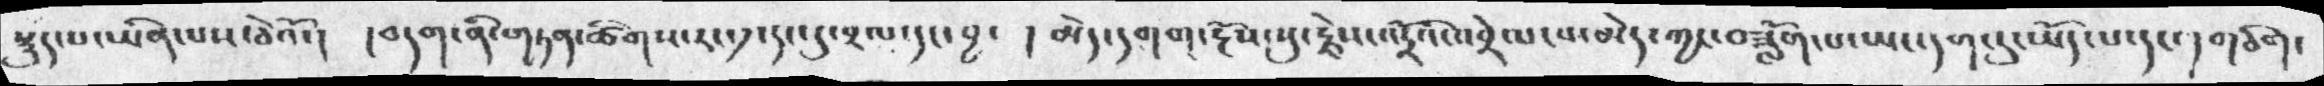སྡུད་པ་ཡིན་པས་ཅེའོ་།  །བདག་ནི་གཏན་ཚིགས་རང་༡་དང་དུ་བྲལ་དང་བྱ་ ། མེད་དགག་རྔོས་སུ་རྗེས་འདྲོའི་འབྲེལ་བ་མེད་ཀྱང་བཟློག་པ་ཡང་དག་དུ་ཡོད་པ་དང་།གཅིག་
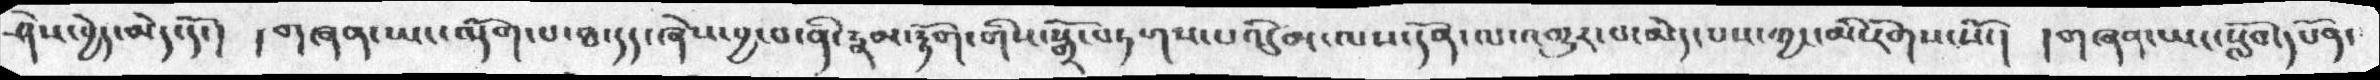ཤེས་བྱེད་མེད་དོ་།  །གཞཉ་ཡང་ལྡོག་པ་ཐ་དད་ཞེས་བྱ་བ་ནི་རྣམ་རྟོག་གིས་སྒྲོ་བཏགས་པའི་མ་ལས་དོན་ལ་འགྱུར་བ་མེད་པས་ཀྱང་མི་རིགས་སོ་།  །གཞན་ཡང་སློབ་དཔོན་
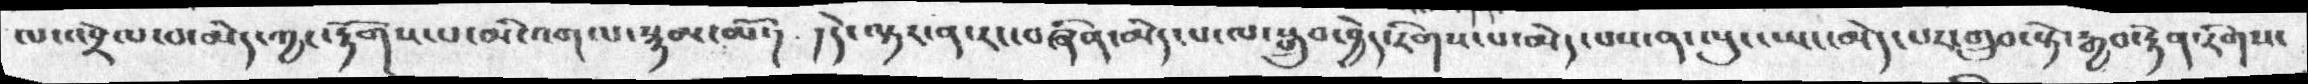ལ་འབྲེལ་བ་མེད་ཀྱང་རྟོགས་པ་མི་འགལ་སྙམ་མོ་།  །དེ་ལྟར་ན་རང་བཞིན་མེད་པ་ལ་སྒྲུབ་བྱེད་རིགས་པ་མེད་པས་ན་ལུང་ཡང་མེད་པར་གྲུབ་སྟེ་རྒྱབ་རྟེན་རིགས་
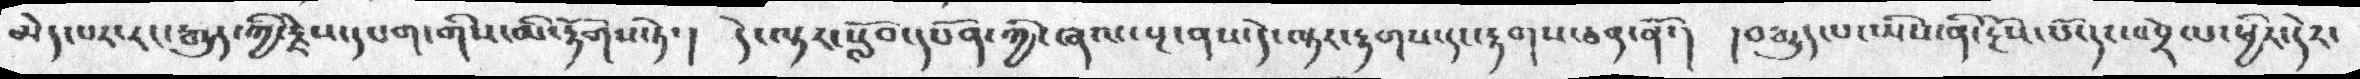མེད་པར་རང་རྒྱུད་ཀྱི་རྗེས་དཔག་གིས་མི་རྟོགས་ཏེ་།  དེ་ལྟར་སློབ་དཔོན་ཀྱི་ཞལ་སྔ་ནས་དེ་ལྟར་རྟགས་དང་རྟགས་ཅན་ནོ་།  །བརྒྱུད་པ་ཡིས་ནི་རྔོས་པོ་དང་འབྲེལ་ཕྱིར་དེར་
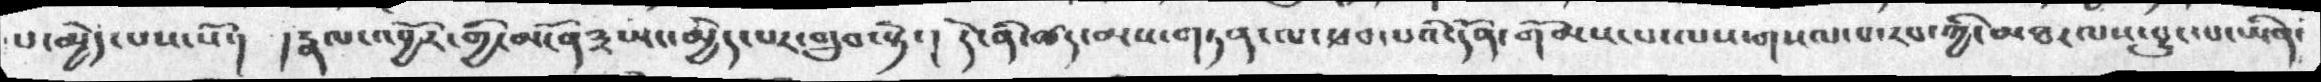པ་མྱེད་པས་སོ་། །རྣལ་འབྱོར་གྱི་མངོན༣ཡང་མྱེད་པར་གྲུབ་སྟེ་། དེ་ནི་ཚད་མས་གཏན་ལ་ཕབ་པའི་དོན་གོམས་པ་ལས་གསལ་པ་རབ་ཀྱི་མཐར་ལས་བྱུང་པ་ཡིན་
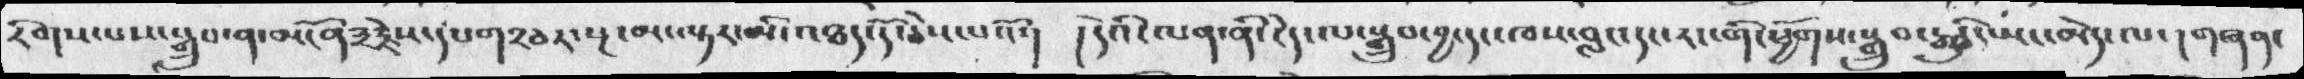རིགས་པས་སྒྲུབ་ན་མངོན༣རྗེས་དཔག༢ཅར་སྔ་མ་ལྟར་མི་འཐད་དོ་ཅེས་པའོ་།  །དེའི་ལན་ནི་ངེད་ལ་སྒྲུབ་བྱ་དང་ཁས་བླང་དང་རང་གི་ཕྱོགས་སྒྲུབ་རྒྱུའི་ཡང་མེད་ལ་། གཞན་
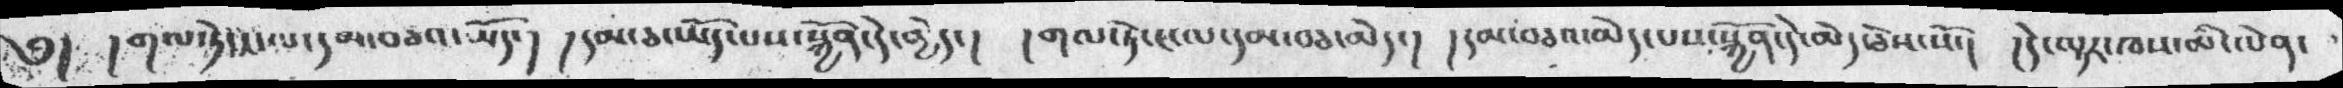༅།  །གལ་ཏེ་ང་ལ་དམ་བཅའ་ཡོད་།  །དམ་ཅ་ཡོད་པས་སྐྱོན་དེ་མྱེད་།  །གལ་ཏེ་ང་ལ་དམ་བཅ་མེད་།  །དམ་བཅའ་མེད་པས་སྐྱོན་དེ་མེད་ཅེས་སོ་།  །དེ་ལྟར་ཁས་མི་ལེན་
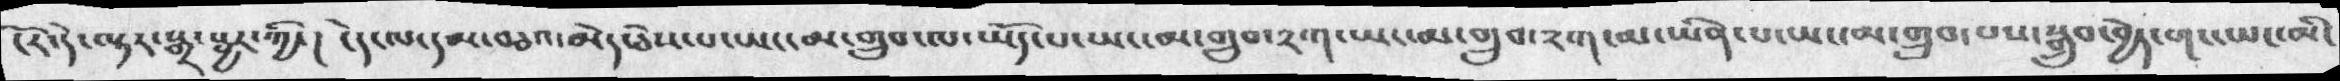ངོར་དེ་ལྟར་སྒྲ་སྦྱར་ཀྱི་།  ངེད་ལ་དམ་བཅའ་མེད་ཅེས་པ་ཡང་མ་གྲུབ་ལ་ཡོད་པ་ཡང་མ་གྲུབ་༢ཀ་ཡང་མ་གྲུབ་༢ག་མ་ཡིན་པ་ཡང་མ་གྲུབ་པས་སྒྲུབ་བྱེད་གང་ཡང་མི་
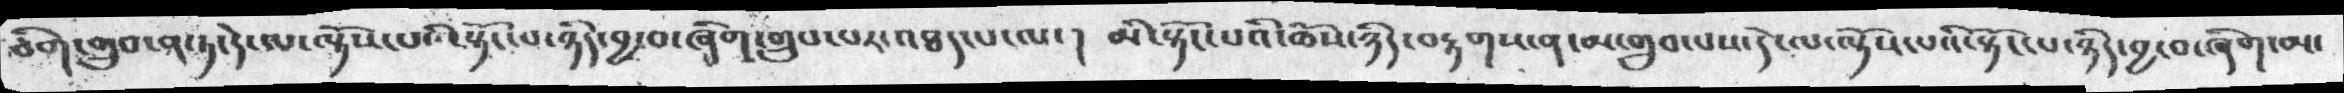ཅིག་གྲུབ་ན་ཏ་དེ་ལ་ལྟོས་པའི་སྟོང་པ་ཉིད་བྱ་བ་ཞིག་གྲུབ་པར་འཐད་པ་ལ་།  མི་སྟོང་པའི་ཆོས་ཉིད་བརྟགས་ན་མ་གྲུབ་པས་དེ་ལ་ལྟོས་པའི་སྟོང་པ་ཉིད་བྱ་བ་ཞིག་མ་
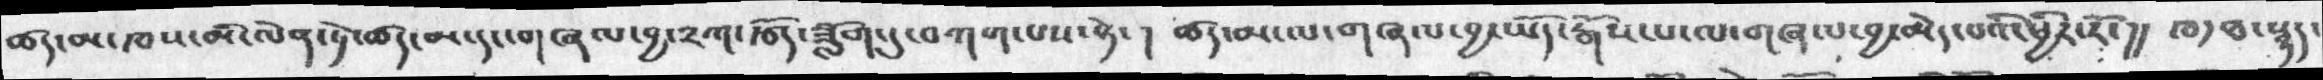ཚད་མ་ཁས་མི་ལེན་ཏེ་ཚད་མ་དང་གཞལ་བྱ་༢ཀ་རྩོད་ཟློག་དུ་བཀག་པས་སྟེ་། ཚད་མ་ལ་གཞལ་བྱ་ཡོད་རྒོས་པ་ལ་གཞལ་བྱ་མེད་པའི་ཕྱིར་རོ་།། ཁ༡ཐ་སྙད་
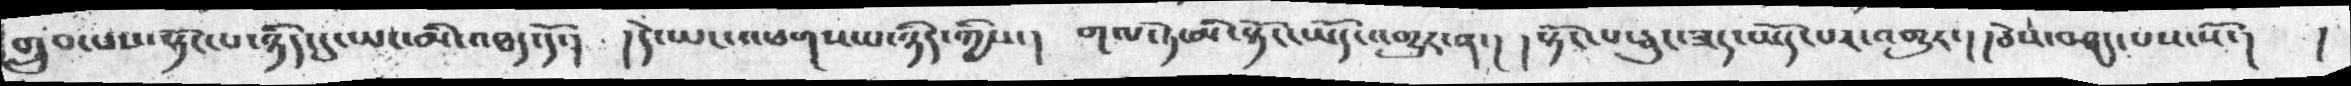གྲུབ་པས་སྟོང་པ་ཉིད་དུ་ཡང་མི་འཐད་དོ་།  །དེ་ཡང་འཕགས་པ་ཉིད་ཀྱིས་། གལ་ཏེ་སྟོང་ཡོད་འགྱུར་ན་། །སྟོང་པ་ཅུང་ཟད་ཡོད་པར་འགྱུར་། །ཅེས་བཤད་པས་སོ་། །
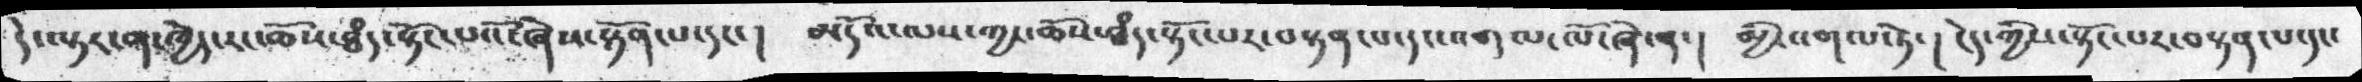དེ་ལྟར་ན་ཁྱེད་རང་ཆོས་ཐཾད་སྟོང་པའོ་ཞེས་སྟོན་པ་དང་།  མདོའ་ལས་ཀྱང་ཆོས་ཐཾད་སྟོང་པར་བསྟན་པ་དང་འགལ་ལོ་ཞེ་ན་།  མྱི་འགལ་ཏེ་།  ངེད་ཀྱིས་སྟོང་པར་བསྟན་པ་དང་
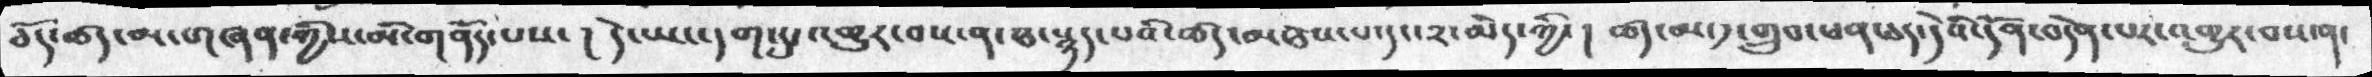ཅོད་ཚད་མ་གཞན་གྱིས་མི་གནོད་པས་།  དེ་ཡང་དག་དུ་འགྱུར་བས་ན་ཐ་སྙད་པའི་ཚད་མཐས་པ་དང་༢་མེད་ཀྱི་། ཚད་མ་གྲུབ་ཕན་ཆད་དེའི་དོན་བདེན་པར་འགྱུར་བས་ན་
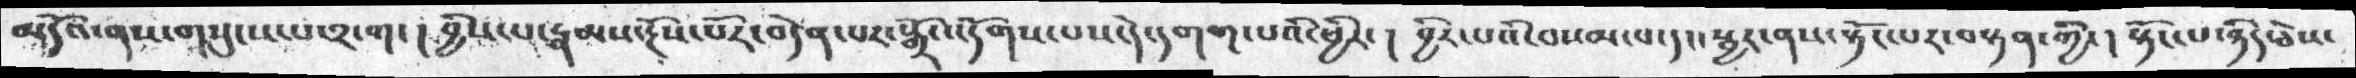མདོའ་ནས་གསུངས་པ་༢་ག་།  བྱིས་པ་རྣམས་རྔོས་པོར་བདེན་པར་སྒྲོ་འདོགས་པས་དེ་དག་དགག་པའི་ཕྱིར་།  བྱིར་པའི་བསམ་པ་དང་སྦྱར་ནས་སྟོང་པར་བསྟན་ཀྱི་། སྟོང་པ་ཉིད་ཅེས་
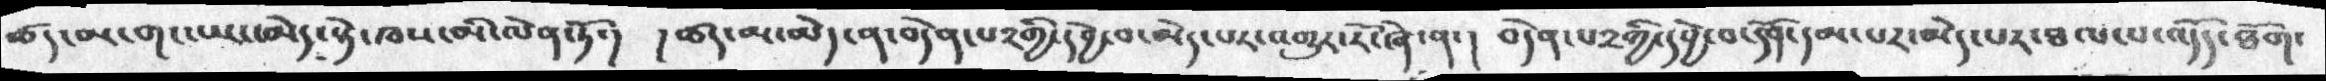ཚད་མ་གང་ཡང་མེད་སྟེ་ཁས་མི་ལེན་ཏོ་།  །ཚད་མ་མེད་ན་བདེན་པ༢གྱི་དབྱེ་བ་མེད་པར་འགྱུར་རོ་ཞེ་ན་། བདེན་པ༢ཀྱི་དབྱེ་བ་དོན་དམ་པར་མེད་པར་ཐལ་པ་འདོད་ཐོག་
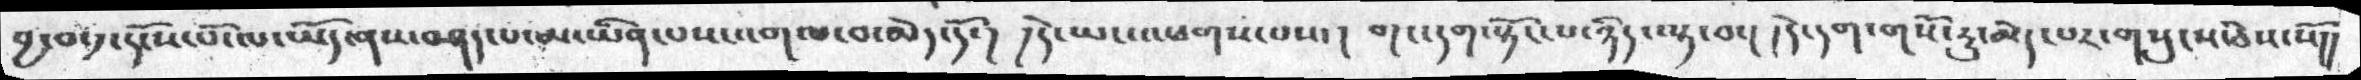བྱ་བ་༡་དངོས་པོ་ལ་ཡོད་ནས་བཤད་པ་མ་ཡིན་པས་འགལ་བ་མེད་དོ་།  །དེ་ཡང་འཕགས་པས་།  གང་དག་སྟོང་པ་ཉིད་ལྟ་བ་། །དེ་དག་གསོ་རུ་མེད་པར་གསུངས་ཅེས་སོ་།།
